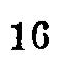16
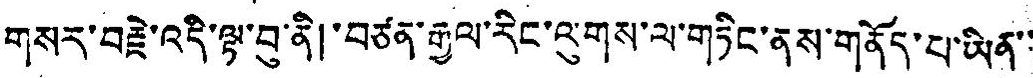གསར་བརྗེ་འདི་ལྟ་བུ་ནི། བཙན་རྒྱལ་རིང་ལུགས་ལ་གཏིང་ནས་གནོད་པ་ཡིན་་
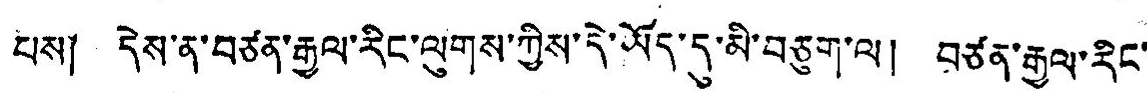པས། དེས་ན་བཙན་རྒྱལ་རིང་ལུསྒ་ཀྱིས་དེ་ཡོད་དུ་མི་བཅུག་ལ། བཙན་རྒྱལ་རིང་
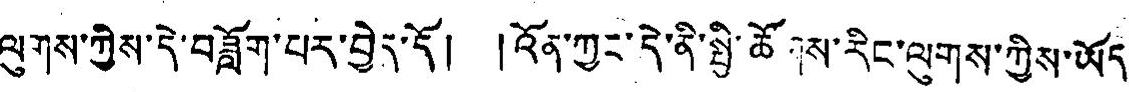ལུགས་ཀྱིས་དེ་བཟློག་པར་བྱེད་དོ། །འོན་ཀྱང་དེ་ནི་སྤྱི་ཚོགས་རིང་ལུགས་ཀྱིས་ཡོད་
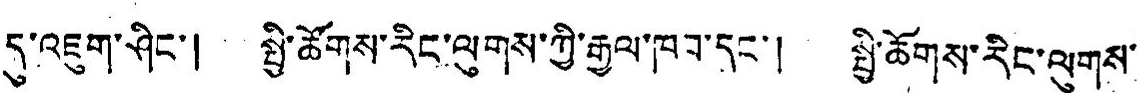དུ་འཇུག་ཤིང་། སྤྱི་ཚོགས་རིང་ལུགས་ཀྱི་རྒྱལ་ཁབ་དང་། སྤྱི་ཚོགས་རིང་ལུགས་
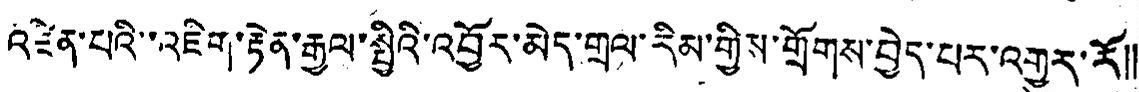འཛིན་པའི་འཇིག་རྟེན་རྒྱལ་སྤྱིའི་འབྱོར་མེད་གྲལ་རིམ་གྱིས་གྲོགས་བྱེད་པར་འགྱུར་རོ༎
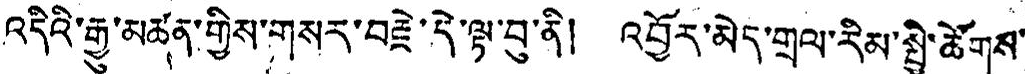འདིའི་རྒྱུ་མཚན་གྱིས་གསར་བརྗེ་དེ་ལྟ་བུ་ནི། འབྱོར་མེད་གྲལ་རིམ་སྤྱི་ཚོགས་
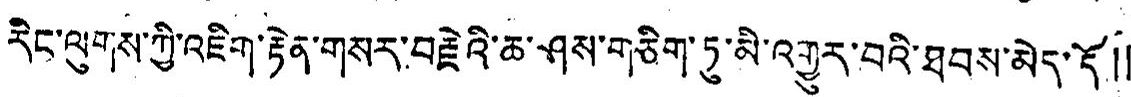རིང་ལུགས་ཀྱི་འཇིག་རྟེན་གསར་བརྗེའི་ཆ་ཤས་གཅིག་ཏུ་མི་འགྱུར་བའི་ཐབས་མེད་དོ༎
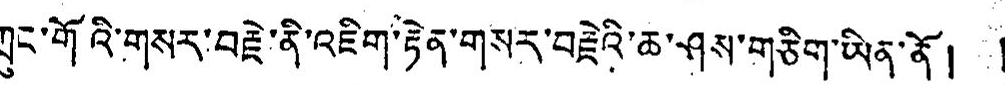ཀྲུང་གོའི་གསར་བརྗེ་ནི་འཇིག་རྟེན་གསར་བརྗེའི་ཆ་ཤས་གཅིག་ཡིན་ནོ། །
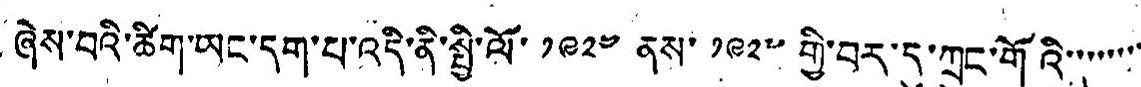ཞེས་བའི་ཚིག་ཡང་དག་པ་འདི་ནི་སྤྱི་ལོ་ ༡༩༢༤ ནས་ ༡༩༢༧ གྱི་བར་དུ་ཀྲུང་གོའི་་་་་་་་
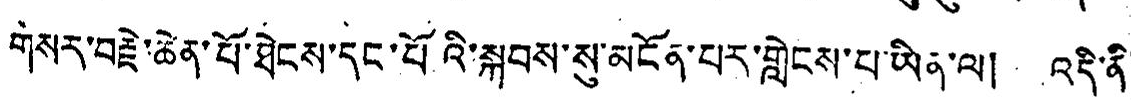གསར་བརྗེ་ཆེན་པོ་ཐེངས་དང་པོའི་སྐབས་སུ་མངོན་པར་གླེངས་པ་ཡིན་ལ། འདི་ནི་
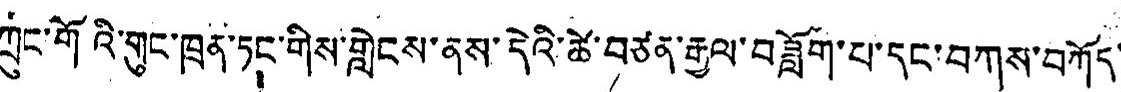ཀྲུང་གོའི་གུང་ཁྲན་ཏང་གིས་གླེངས་ནས་དེའི་ཚེ་བཙན་རྒྱལ་བཟློག་པ་དང་བཀས་བཀོད་
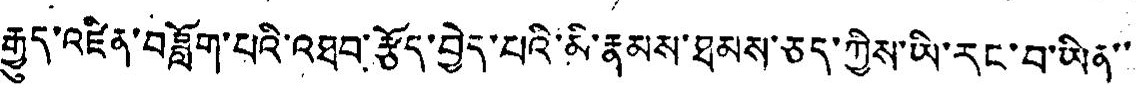རྒྱུད་འཛིན་བཟློག་པའི་འཐབ་རྩོད་བྱེད་པའི་མི་རྣམས་ཐམས་ཅད་ཀྱིས་ཡི་རང་བ་ཡིན་་
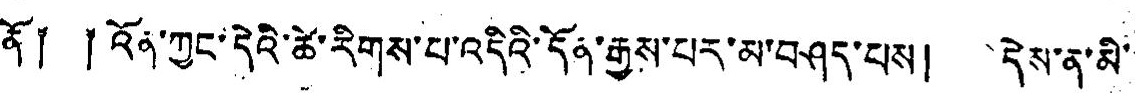ནོ༐ ༐ འོན་ཀྱང་དེའི་ཚེ་རིགས་པ་འདིའི་དོན་རྒྱས་པར་མ་བཤད་པས། དེས་ན་མི་
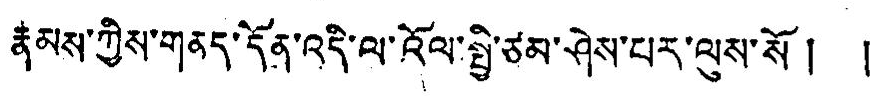རྣམས་ཀྱིས་གནད་དོན་འདི་ལ་འོལ་སྤྱི་ཙམ་ཤེས་པར་ལུས་སོ ། །
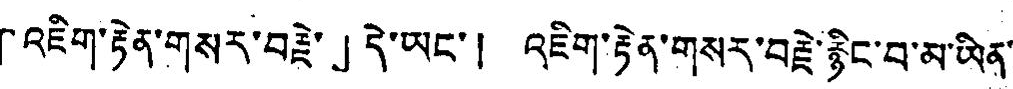「འཇིག་རྟེན་གསར་བརྗེ་」དེ་ཡང་། འཇིག་རྟེན་གསར་བརྗེ་རྙིང་བ་མ་ཡིན་
